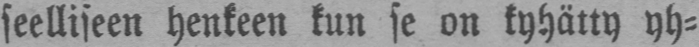seelliseen henkeen kun se on kyhätty yh-
